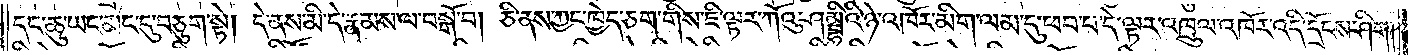དང་ཆུ་ཡང་མང་དུ་བཅུག་སྟེ། དེ་ནས་མི་དེ་རྣམས་ལ་བསྒོ་བ། ཅི་ནས་ཀྱང་ཁྱེད་ཅག་གིས་ཇི་ལྟར་ཀོའུ་ཤམྦྷིའི་ཉེ་འཁོར་མིག་ལམ་དུ་ཕབ་པ་དེ་ལྟར་འཁྲུལ་འཁོར་འདི་དྲོངས་ཤིག །
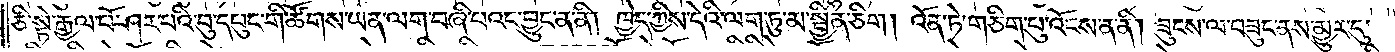ཅི་སྟེ་རྒྱལ་པོ་ཤར་པའི་བུ་དཔུང་གི་ཚོགས་ཡན་ལག་བཞི་པའང་བྱུང་ན་ནི། ཁྱེད་ཀྱིས་དེའི་ལག་ཏུ་མ་སྦྱིན་ཅིག །འོན་ཏེ་གཅིག་པུ་འོངས་ན་ནི། ཟུངས་ལ་བཟུང་ནས་མྱུར་དུ་
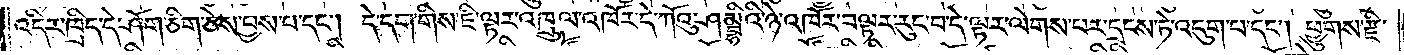འདིར་ཁྲིད་དེ་ཤོག་ཅིག་ཅེས་བྱས་པ་དང༌། དེ་དག་གིས་ཇི་ལྟར་འཁྲུལ་འཁོར་དེ་ཀོའུ་ཤམྦྷིའི་ཉེ་འཁོར་བལྟར་རུང་བ་དེ་ལྟར་ལེགས་པར་དྲངས་ཏེ་འདུག་པ་དང༌། ཕྱུགས་རྫི་
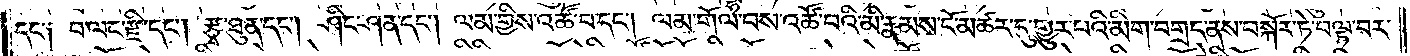དང་༑ བ་ལང་རྫི་དང༌། རྩྭ་ཐུན་དང༌། ཤིང་ཤན་དང༌། ལམ་གྱིས་འཚོ་བ་དང༌། ལམ་གོལ་བས་འཚོ་བའི་མི་རྣམས་ངོ་མཚར་དུ་གྱུར་པའི་མིག་བགྲང་ནས་བསྐོར་ཏེ་བལྟ་བར་
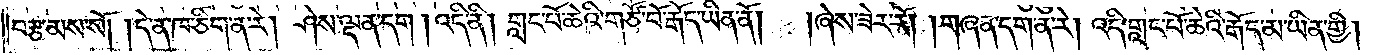བརྩམས་སོ། །དེ་ན་ཁ་ཅིག་ན་རེ། ཤེས་ལྡན་དག །འདི་ནི། གླང་པོ་ཆེའི་གཙོ་བོ་རྒོད་ཡིན་ནོ། །ཞེས་ཟེར་རོ། །གཞན་དག་ན་རེ། འདི་གླང་པོ་ཆེའི་རྒོད་མ་ཡིན་གྱི།
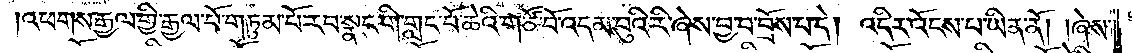འཕགས་རྒྱལ་གྱི་རྒྱལ་པོ་གཏུམ་པོ་རབ་སྣང་གི་གླང་པོ་ཆེའི་གཙོ་བོ་འདམ་བུའི་རི་ཞེས་བྱ་བ་བྲོས་པ་དེ། འདིར་འོངས་པ་ཡིན་ནོ། །ཞེས་
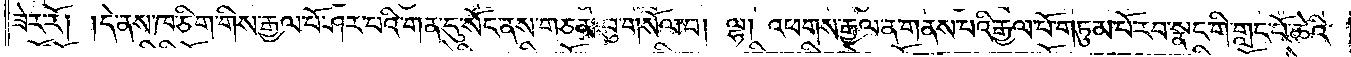ཟེར་རོ། །དེ་ནས་ཁ་ཅིག་གིས་རྒྱལ་པོ་ཤར་པའི་གན་དུ་སོང་ནས་གཅམ་བུ་གསོལ་བ། ལྷ། འཕགས་རྒྱལ་ན་གནས་པའི་རྒྱལ་པོ་གཏུམ་པོ་རབ་སྣང་གི་གླང་པོ་ཆེའི་
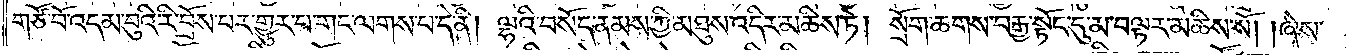གཙོ་བོ་འདམ་བུའི་རི་བྲོས་པར་གྱུར་པ་གང་ལགས་པ་དེ་ནི། ལྷའི་བསོད་ནམས་ཀྱི་མཐུས་འདིར་མཆིས་ཏེ། སྲོག་ཆགས་བརྒྱ་སྟོང་དུ་མ་བལྟར་མཆིས་སོ། །ཞེས་
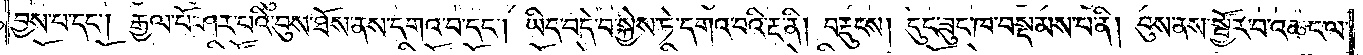བྱས་པ་དང༌། རྒྱལ་པོ་ཤར་པའི་བུས་ཐོས་ནས་དགའ་བ་དང༌། ཡིད་བདེ་བ་སྐྱེས་ཏེ་དགའ་བའི་རྔ་ནི། བརྡུངས། དུང་ཟུང་ཁ་བསྡམས་པ་ནི། བུས་ནས་སྦྱོར་བ་འཆང་ལ་
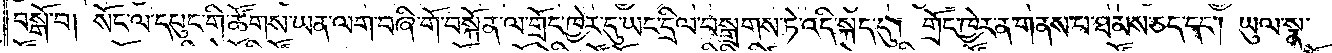བསྒོ་བ། སོང་ལ་དཔུང་གི་ཚོགས་ཡན་ལག་བཞི་གོ་བསྐོན་ལ་གྲོང་ཁྱེར་དུ་ཡང་དྲིལ་བསྒྲགས་ཏེ་འདི་སྐད་དུ། གྲོང་ཁྱེར་ན་གནས་པ་ཐམས་ཅད་དང༌། ཡུལ་སྣ་
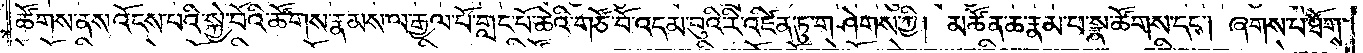ཚོགས་ནས་འོངས་པའི་སྐྱེ་བོའི་ཚོགས་རྣམས་ལ་རྒྱལ་པོ་གླང་པོ་ཆེའི་གཙོ་བོ་འདམ་བུའི་རི་འཛིན་དུ་གཤེགས་ཀྱི། མཚོན་ཆ་རྣམ་པ་སྣ་ཚོགས་དང༌། ཞགས་པ་ཐོགས་
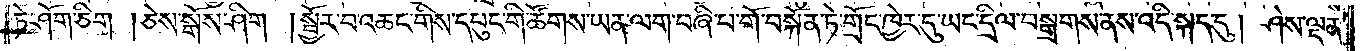ཏེ་ཤོག་ཅིག །ཅེས་སྒོས་ཤིག །སྦྱོར་བ་འཆང་གིས་དཔུང་གི་ཚོགས་ཡན་ལག་བཞི་པ་གོ་བསྐོན་ཏེ་གྲོང་ཁྱེར་དུ་ཡང་དྲིལ་བསྒྲགས་ནས་འདི་སྐད་དུ། ཤེས་ལྡན་
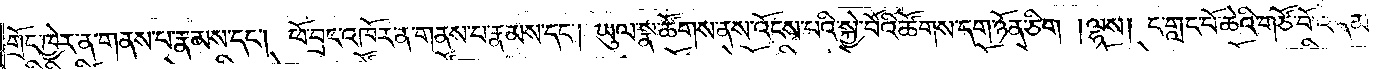གྲོང་ཁྱེར་ན་གནས་པ་རྣམས་དང༌། ཕོ་བྲང་འཁོར་ན་གནས་པ་རྣམས་དང༌། ཡུལ་སྣ་ཚོགས་ནས་འོངས་པའི་སྐྱེ་བོའི་ཚོགས་དག་ཉོན་ཅིག །ལྷས། ང་གླང་པོ་ཆེའི་གཙོ་བོ་འདམ་
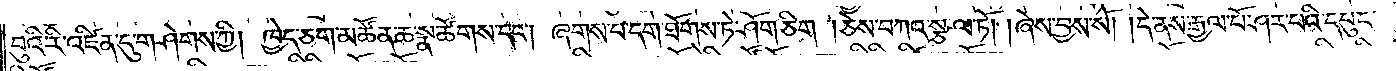བུའི་རི་འཛིན་དུ་གཤེགས་ཀྱི། ཁྱེད་ཅག་མཚོན་ཆ་སྣ་ཚོགས་དང༌། ཞགས་པ་དག་ཐོགས་ཏེ་ཤོག་ཅིག །ཅེས་བཀའ་སྩལ་ཏོ། །ཞེས་བྱས་སོ། །དེ་ནས་རྒྱལ་པོ་ཤར་པའི་དཔུང་
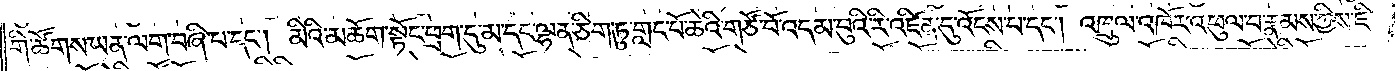གི་ཚོགས་ཡན་ལག་བཞི་པ་དང༌། མིའི་མཆོག་སྟོང་ཕྲག་དུ་མ་དང་ལྷན་ཅིག་ཏུ་གླང་པོ་ཆེའི་གཙོ་བོ་འདམ་བུའི་རི་འཛིན་དུ་འོངས་པ་དང༌། འཁྲུལ་འཁོར་འཕུལ་བ་རྣམས་ཀྱིས་ཇི་
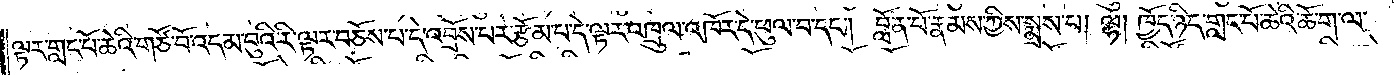ལྟར་གླང་པོ་ཆེའི་གཙོ་བོ་འདམ་བུའི་རི་ལྟར་བཅོས་པ་དེ་འབྲོས་པར་རྩོམ་པ་དེ་ལྟར་འཁྲུལ་འཁོར་དེ་ཕུལ་བ་དང༌། བློན་པོ་རྣམས་ཀྱིས་སྨྲས་པ། ལྷ། ཁྱོད་ཉིད་གླང་པོ་ཆེའི་ཆོ་ག་ལ་
